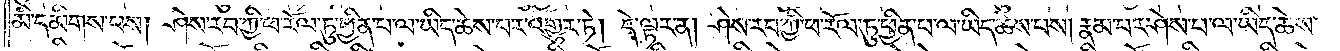མི་དམིགས་པས། ཤེས་རབ་ཀྱི་ཕ་རོལ་ཏུ་ཕྱིན་པ་ལ་ཡིད་ཆེས་པར་འགྱུར་ཏེ། དེ་ལྟར་ན། ཤེས་རབ་ཀྱི་ཕ་རོལ་ཏུ་ཕྱིན་པ་ལ་ཡིད་ཆེས་པས། རྣམ་པར་ཤེས་པ་ལ་ཡིད་ཆེས་
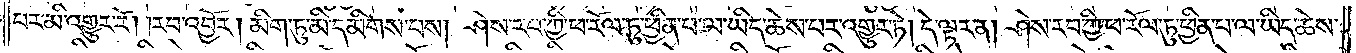པར་མི་འགྱུར་རོ། །རབ་འབྱོར། མིག་ཏུ་མི་དམིགས་པས། ཤེས་རབ་ཀྱི་ཕ་རོལ་ཏུ་ཕྱིན་པ་ལ་ཡིད་ཆེས་པར་འགྱུར་ཏེ། དེ་ལྟར་ན། ཤེས་རབ་ཀྱི་ཕ་རོལ་ཏུ་ཕྱིན་པ་ལ་ཡིད་ཆེས་
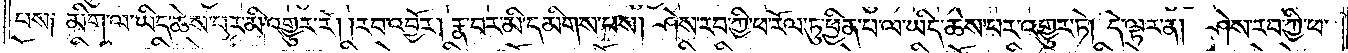པས༑ མིག་ལ་ཡིད་ཆེས་པར་མི་འགྱུར་རོ། །རབ་འབྱོར། རྣ་བར་མི་དམིགས་པས། ཤེས་རབ་ཀྱི་ཕ་རོལ་ཏུ་ཕྱིན་པ་ལ་ཡིད་ཆེས་པར་འགྱུར་ཏེ། དེ་ལྟར་ན། ཤེས་རབ་ཀྱི་ཕ་
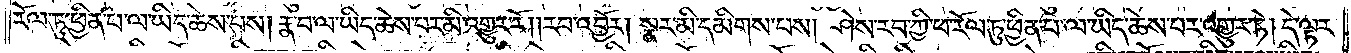རོལ་ཏུ་ཕྱིན་པ་ལ་ཡིད་ཆེས་པས། རྣ་བ་ལ་ཡིད་ཆེས་པར་མི་འགྱུར་རོ། །རབ་འབྱོར། སྣར་མི་དམིགས་པས། ཤེས་རབ་ཀྱི་ཕ་རོལ་ཏུ་ཕྱིན་པ་ལ་ཡིད་ཆེས་པར་འགྱུར་ཏེ། དེ་ལྟར་
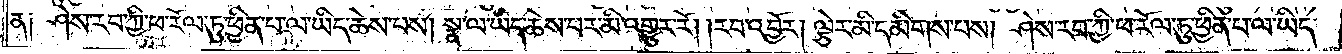ན༑ ཤེས་རབ་ཀྱི་ཕ་རོལ་ཏུ་ཕྱིན་པ་ལ་ཡིད་ཆེས་པས། སྣ་ལ་ཡིད་ཆེས་བར་མི་འགྱུར་རོ། །རབ་འབྱོར། ལྕེར་མི་དམིགས་པས། ཤེས་རབ་ཀྱི་ཕ་རོལ་ཏུ་ཕྱིན་པ་ལ་ཡིད་
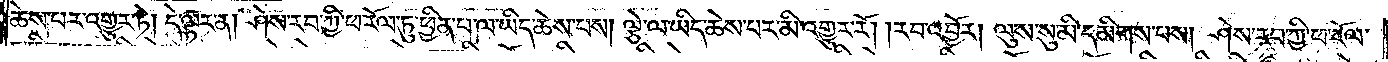ཆེས་པར་འགྱུར་ཏེ། དེ་ལྟར་ན། ཤེས་རབ་ཀྱི་ཕ་རོལ་ཏུ་ཕྱིན་པ་ལ་ཡིད་ཆེས་པས། ལྕེ་ལ་ཡིད་ཆེས་པར་མི་འགྱུར་རོ། །རབ་འབྱོར། ལུས་སུ་མི་དམིགས་པས། ཤེས་རབ་ཀྱི་ཕ་རོལ་
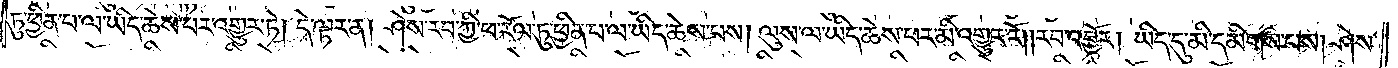ཏུ་ཕྱིན་པ་ལ་ཡིད་ཆེས་པར་འགྱུར་ཏེ། དེ་ལྟར་ན། ཤེས་རབ་ཀྱི་ཕ་རོལ་ཏུ་ཕྱིན་པ་ལ་ཡིད་ཆེས་པས། ལུས་ལ་ཡིད་ཆེས་པར་མི་འགྱུར་རོ། །རབ་འབྱོར། ཡིད་དུ་མི་དམིགས་པས། ཤེས་
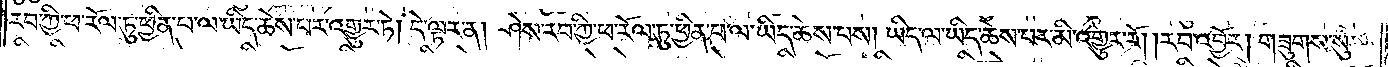རབ་ཀྱི་ཕ་རོལ་ཏུ་ཕྱིན་པ་ལ་ཡིད་ཆེས་པར་འགྱུར་ཏེ། དེ་ལྟར་ན། ཤེས་རབ་ཀྱི་ཕ་རོལ་ཏུ་ཕྱིན་པ་ལ་ཡིད་ཆེས་པས། ཡིད་ལ་ཡིད་ཆེས་པར་མི་འགྱུར་རོ། །རབ་འབྱོར། གཟུགས་སུ་
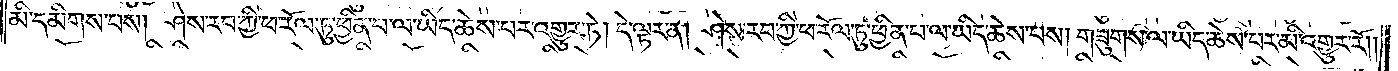མི་དམིགས་པས། ཤེས་རབ་ཀྱི་ཕ་རོལ་ཏུ་ཕྱིན་པ་ལ་ཡིད་ཆེས་པར་འགྱུར་ཏེ། དེ་ལྟར་ན། ཤེས་རབ་ཀྱི་ཕ་རོལ་ཏུ་ཕྱིན་པ་ལ་ཡིད་ཆེས་པས། གཟུགས་ལ་ཡིད་ཆེས་པར་མི་འགྱུར་རོ། །
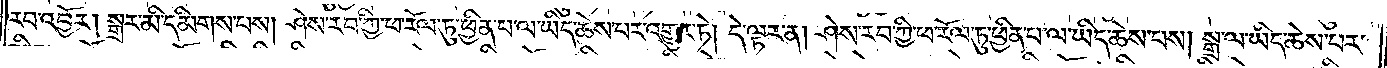རབ་འབྱོར། སྒྲར་མི་དམིགས་པས། ཤེས་རབ་ཀྱི་ཕ་རོལ་ཏུ་ཕྱིན་པ་ལ་ཡིད་ཆེས་པར་འགྱུར་ཏེ། དེ་ལྟར་ན། ཤེས་རབ་ཀྱི་ཕ་རོལ་ཏུ་ཕྱིན་པ་ལ་ཡིད་ཆེས་པས། སྒྲ་ལ་ཡིད་ཆེས་པར་
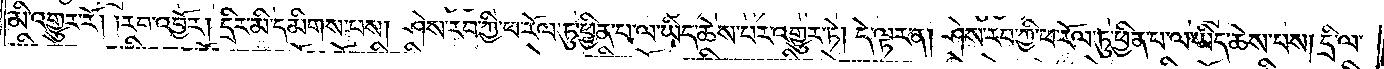མི་འགྱུར་རོ། །རབ་འབྱོར། དྲིར་མི་དམིགས་པས། ཤེས་རབ་ཀྱི་ཕ་རོལ་ཏུ་ཕྱིན་པ་ལ་ཡིད་ཆེས་པར་འགྱུར་ཏེ། དེ་ལྟར་ན། ཤེས་རབ་ཀྱི་ཕ་རོལ་ཏུ་ཕྱིན་པ་ལ་ཡིད་ཆེས་པས། དྲི་ལ་
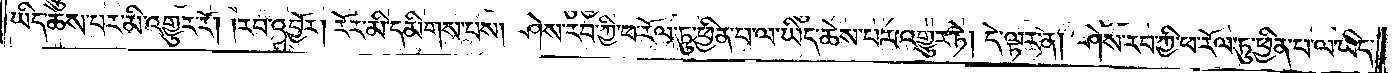ཡིད་ཆེས་པར་མི་འགྱུར་རོ། །རབ་འབྱོར། རོར་མི་དམིགས་པས། ཤེས་རབ་ཀྱི་ཕ་རོལ་ཏུ་ཕྱིན་པ་ལ་ཡིད་ཆེས་པར་འགྱུར་ཏེ། དེ་ལྟར་ན། ཤེས་རབ་ཀྱི་ཕ་རོལ་ཏུ་ཕྱིན་པ་ལ་ཡིད་
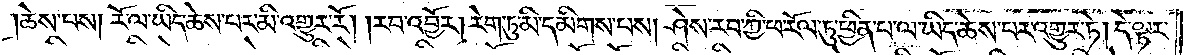ཆེས་པས། རོ་ལ་ཡིད་ཆེས་པར་མི་འགྱུར་རོ། །རབ་འབྱོར། རེག་ཏུ་མི་དམིགས་པས། ཤེས་རབ་ཀྱི་ཕ་རོལ་ཏུ་ཕྱིན་པ་ལ་ཡིད་ཆེས་པར་འགྱུར་ཏེ། དེ་ལྟར་
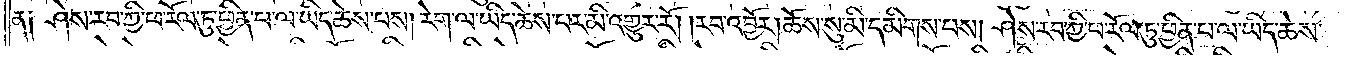ན༑ ཤེས་རབ་ཀྱི་ཕ་རོལ་ཏུ་ཕྱིན་པ་ལ་ཡིད་ཆེས་པས། རེག་ལ་ཡིད་ཆེས་པར་མི་འགྱུར་རོ། །རབ་འབྱོར། ཆོས་སུ་མི་དམིགས་པས། ཤེས་རབ་ཀྱི་ཕ་རོལ་ཏུ་ཕྱིན་པ་ལ་ཡིད་ཆེས་
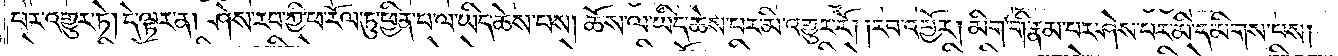པར་འགྱུར་ཏེ། དེ་ལྟར་ན། ཤེས་རབ་ཀྱི་ཕ་རོལ་ཏུ་ཕྱིན་པ་ལ་ཡིད་ཆེས་པས། ཆོས་ལ་ཡིད་ཆེས་པར་མི་འགྱུར་རོ། །རབ་འབྱོར། མིག་གི་རྣམ་པར་ཤེས་པར་མི་དམིགས་པས།
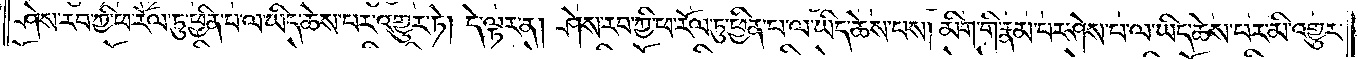ཤེས་རབ་ཀྱི་ཕ་རོལ་ཏུ་ཕྱིན་པ་ལ་ཡིད་ཆེས་པར་འགྱུར་ཏེ། དེ་ལྟར་ན། ཤེས་རབ་ཀྱི་ཕ་རོལ་ཏུ་ཕྱིན་པ་ལ་ཡིད་ཆེས་པས། མིག་གི་རྣམ་པར་ཤེས་པ་ལ་ཡིད་ཆེས་བར་མི་འགྱུར་
